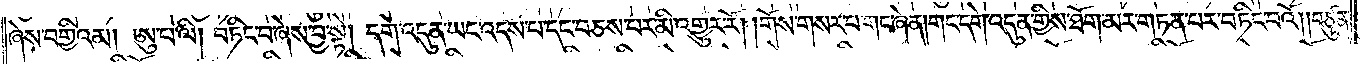ཞེས་བགྱིའམ། ཨུ་པ་ལི། བཏིང་བ་ཞེས་བྱ་སྟེ། དགེ་འདུན་ཡང་འདས་པ་དང་བཅས་པར་མི་འགྱུར་རོ། །གོས་གསར་པ་གང་ཞེ་ན། གང་དགེ་འདུན་གྱིས་ཐོག་མར་གཏན་པར་བཏིང་བའོ། །བཙུན་
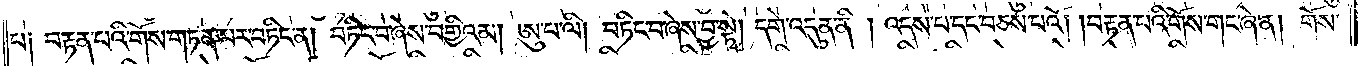པ༑ བརྟན་པའི་གོས་གཏན་པར་བཏིང་ན། བཏིང་བ་ཞེས་བགྱིའམ། ཨུ་པ་ལི། བཏིང་བ་ཞེས་བྱ་སྟེ། དགེ་འདུན་ནི། འདས་པ་དང་བཅས་པའོ། །བརྟན་པའི་གོས་གང་ཞེ་ན། གོས་
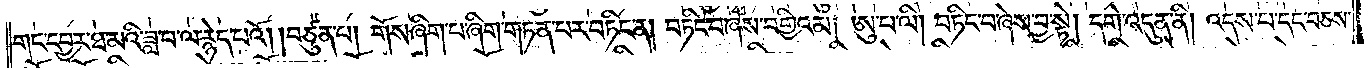གང་དབྱར་ཐ་མའི་ཟླ་བ་ལ་རྙེད་པའོ། །བཙུན་པ། གོས་ཞིག་པ་ཞིག་གཏན་པར་བཏིང་ན། བཏིང་བ་ཞེས་བགྱིའམ། ཨུ་པ་ལི། བཏིང་བ་ཞེས་བྱ་སྟེ། དགེ་འདུན་ནི། འདས་པ་དང་བཅས་
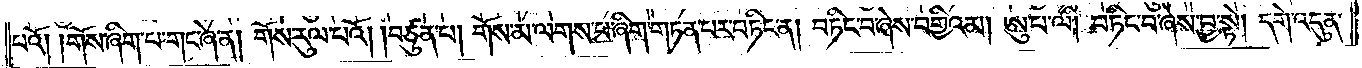པའོ། །གོས་ཞིག་པ་གང་ཞེ་ན། གོས་རུལ་པའོ། །བཙུན་པ། གོས་མ་ལགས་པ་ཞིག་གཏན་པར་བཏིང་ན། བཏིང་བ་ཞེས་བགྱིའམ། ཨུ་པ་ལི། བཏིང་བ་ཞེས་བྱ་སྟེ། དགེ་འདུན་
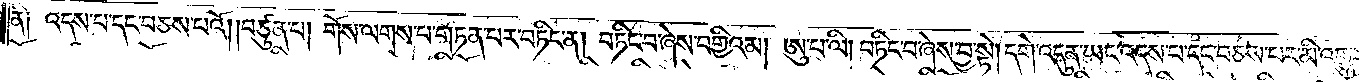ནི༑ འདས་པ་དང་བཅས་པའོ། །བཙུན་པ། གོས་ལགས་པ་གཏན་པར་བཏིང་ན། བཏིང་བ་ཞེས་བགྱིའམ། ཨུ་པ་ལི། བཏིང་བ་ཞེས་བྱ་སྟེ། དགེ་འདུན་ཡང་འདས་པ་དང་བཅས་པར་མི་འགྱུར་
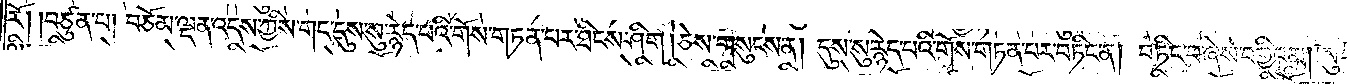རོ། །བཙུན་པ། བཅོམ་ལྡན་འདས་ཀྱིས་གང་དུས་སུ་རྙེད་པའི་གོས་གཏན་པར་ཐིངས་ཤིག །ཅེས་གསུངས་ན། དུས་སུ་རྙེད་པའི་གོས་གཏན་པར་བཏིང་ན། བཏིང་བ་ཞེས་བགྱིའམ། ཨུ་
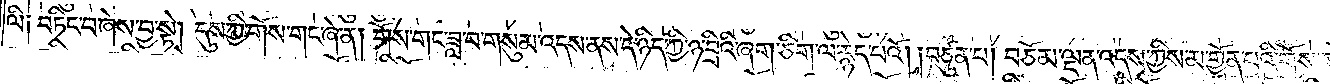ལི༑ བཏིང་བ་ཞེས་བྱ་སྟེ། དུས་ཀྱི་གོས་གང་ཞེ་ན། གོས་གང་ཟླ་བ་གསུམ་འདས་ནས་དེ་ཉིད་ཀྱི་ཉ་བྲིའི་ཞག་ཅིག་ལ་རྙེད་པའོ། །བཙུན་པ། བཅོམ་ལྡན་འདས་ཀྱིས་མ་གྱོན་པའི་གོས་གཏན་
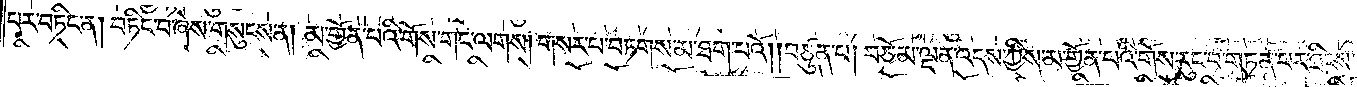པར་བཏིང་ན། བཏིང་བ་ཞེས་གསུངས་ན། མ་གྱོན་པའི་གོས་གང་ལགས། གསར་པ་བཏགས་མ་ཐག་པའོ། །བཙུན་པ། བཅོམ་ལྡན་འདས་ཀྱིས་མ་གྱོན་པའི་གོས་རུང་བ་གཏན་པར་ཐིངས་
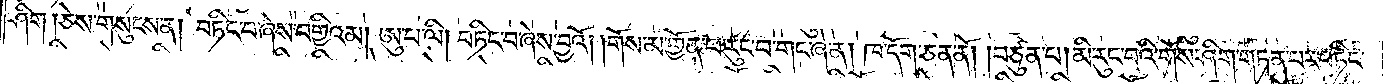ཤིག །ཅེས་གསུངས་ན། བཏིང་བ་ཞེས་བགྱིའམ། ཨུ་པ་ལི། བཏིང་བ་ཞེས་བྱའོ། །གོས་མ་གྱོན་པ་རུང་བ་གང་ཞེ་ན། ཁ་དོག་ཅན་ནོ། །བཙུན་པ། མི་རུང་བའི་གོས་ཤིག་གཏན་པར་བཏིང་
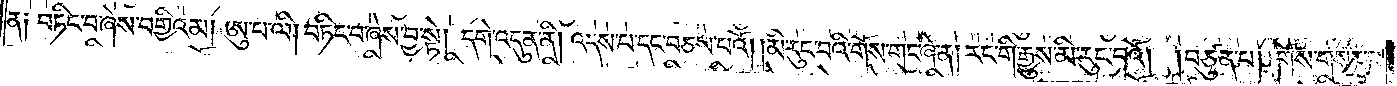ན༑ བཏིང་བ་ཞེས་བགྱིའམ། ཨུ་པ་ལི། བཏིང་བ་ཞེས་བྱ་སྟེ། དགེ་འདུན་ནི། འདས་པ་དང་བཅས་པའོ། །མི་རུང་བའི་གོས་གང་ཞེ་ན། རང་གི་རྒྱུས་མི་རུང་བའོ། །བཙུན་པ། གོས་གསར་པ་
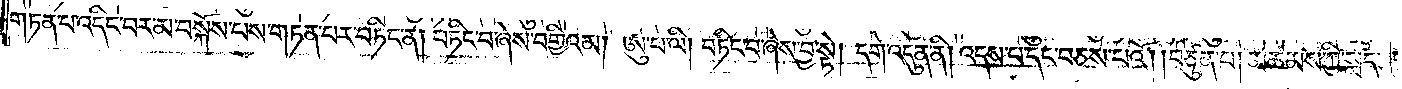གཏན་པ་འདིང་བར་མ་བསྐོས་པས་གཏན་པར་བཏིང་ན། བཏིང་བ་ཞེས་བགྱིའམ། ཨུ་པ་ལི། བཏིང་བ་ཞེས་བྱ་སྟེ། དགེ་འདུན་ནི། འདས་པ་དང་བཅས་པའོ། །བཙུན་པ། མཚམས་ཀྱི་སླད་
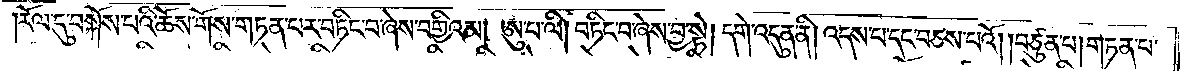རོལ་དུ་བསྐོས་པའི་ཆོས་གོས་གཏན་པར་བཏིང་བ་ཞེས་བགྱིའམ། ཨུ་པ་ལི། བཏིང་བ་ཞེས་བྱ་སྟེ། དགེ་འདུན་ནི། འདས་པ་དང་བཅས་པའོ། །བཙུན་པ། གཏན་པ་
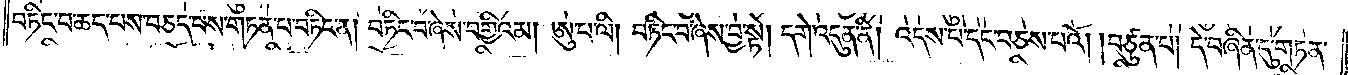བཏིང་བ་ཆད་པས་བཅད་པས་གཏན་པ་བཏིང་ན། བཏིང་བ་ཞེས་བགྱིའམ། ཨུ་པ་ལི། བཏིང་བ་ཞེས་བྱ་སྟེ། དགེ་འདུན་ནི། འདས་པ་དང་བཅས་པའོ། །བཙུན་པ། དེ་བཞིན་དུ་གཏན་
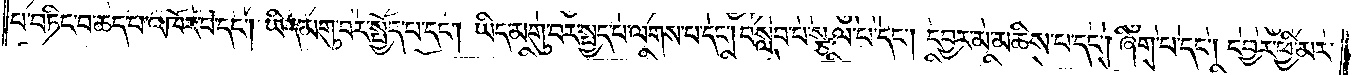པ་བཏིང་བ་ཆད་པ་འཁོར་བ་དང༌། ཡིད་མགུ་བར་སྤྱོད་པ་དང༌། ཡིད་མགུ་བར་སྤྱད་པ་ལགས་པ་དང༌། བསླབ་པ་སྩལ་པ་དང༌། དབྱར་མ་མཆིས་པ་དང༌། ཞིག་པ་དང༌། དབྱར་ཕྱི་མར་
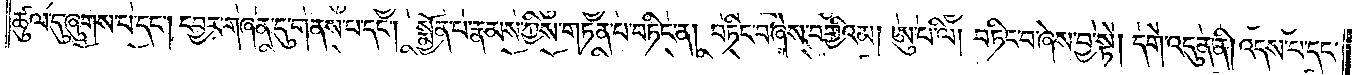ཚུལ་དུ་ཞུགས་པ་དང༌། དབྱར་གཞན་དུ་གནས་པ་དང༌། སྨྱོན་པ་རྣམས་ཀྱིས་གཏན་པ་བཏིང་ན། བཏིང་བ་ཞེས་བགྱིའམ། ཨུ་པ་ལི། བཏིང་བ་ཞེས་བྱ་སྟེ། དགེ་འདུན་ནི། འདས་པ་དང་
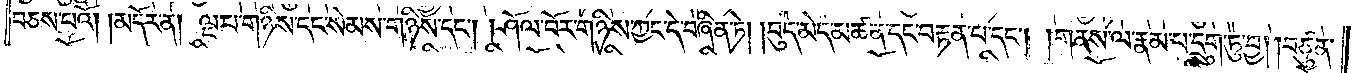བཅས་པའོ། །མདོར་ན། ལྔ་པ་གཉིས་དང་སེམས་གཉིས་དང༌། །ཤོལ་བོར་གཉིས་ཀྱང་དེ་བཞིན་ཏེ། །བུད་མེད་མཚན་དང་བརྟན་པ་དང༌། །གནས་ལ་རྣམ་པ་དྲུག་ཏུ་བྱ། །བཙུན་
